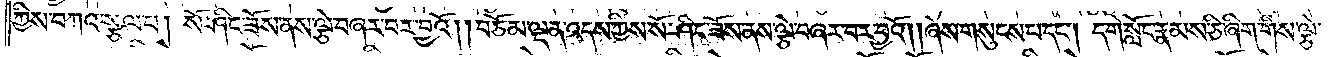ཀྱིས་བཀའ་སྩལ་པ། སོ་ཤིང་ཟོས་ནས་ལྕེ་བཞར་བར་བྱའོ། །བཅོམ་ལྡན་འདས་ཀྱིས་སོ་ཤིང་ཟོས་ནས་ལྕེ་བཞར་བར་བྱའོ། །ཞེས་གསུངས་པ་དང༌། དགེ་སློང་རྣམས་ཅི་ཞིག་གིས་ལྕེ་
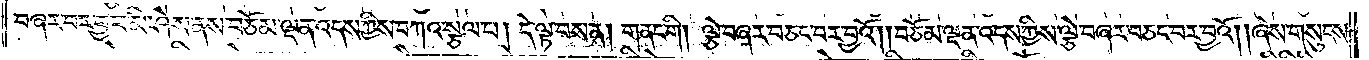བཞར་བར་བྱ་བ་མི་ཤེས་ནས་བཅོམ་ལྡན་འདས་ཀྱིས་བཀའ་སྩལ་པ། དེ་ལྟ་བས་ན། གནང་གི། ལྕེ་བཞར་བཅང་བར་བྱའོ། །བཅོམ་ལྡན་འདས་ཀྱིས་ལྕེ་བཞར་བཅང་བར་བྱའོ། །ཞེས་གསུངས་
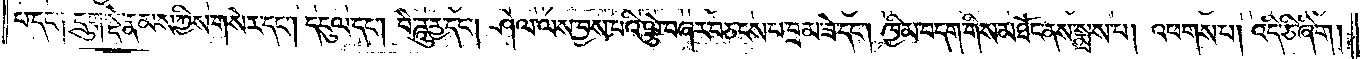པ་དང༌། དྲུག་སྡེ་རྣམས་ཀྱིས་གསེར་དང༌། དངུལ་དང༌། བཻཌཱུཪྻ་དང༌། ཤེལ་ལས་བྱས་པའི་ལྕེ་བཞར་བཅངས་པ་བྲམ་ཟེ་དང༌། ཁྱིམ་བདག་གིས་མཐོང་ནས་སྨྲས་པ། འཕགས་པ། འདི་ཅི་ཞིག།
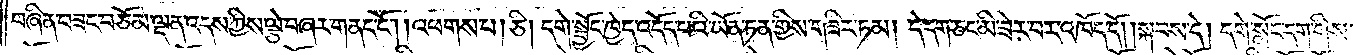བཞིན་བཟང་བཅོམ་ལྡན་འདས་ཀྱིས་ལྕེ་བཞར་གནང་ངོ༌། །འཕགས་པ། ཅི། དགེ་སྦྱོང་ཁྱེད་འདོད་པའི་ཡོན་ཏན་གྱིས་གཟིར་ཏམ། དེ་དག་ཅང་མི་ཟེར་བར་འཁོད་དོ། །སྐབས་དེ། དགེ་སློང་དག་གིས་
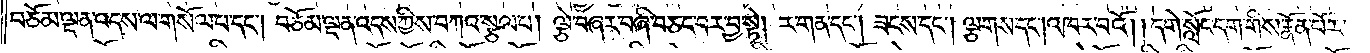བཅོམ་ལྡན་འདས་ལ་གསོལ་པ་དང༌། བཅོམ་ལྡན་འདས་ཀྱིས་བཀའ་སྩལ་པ། ལྕེ་བཞར་བཞི་བཅང་བར་བྱ་སྟེ། ར་གན་དང༌། ཟངས་དང༌། ལྕགས་དང༌། འཁར་བའོ། །དགེ་སློང་དག་གིས་རྣོན་པོར་
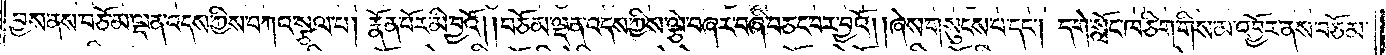བྱས་ནས་བཅོམ་ལྡན་འདས་ཀྱིས་བཀའ་སྩལ་པ། རྣོན་པོར་མི་བྱའོ། །བཅོམ་ལྡན་འདས་ཀྱིས་ལྕེ་བཞར་བཞི་བཅང་བར་བྱའོ། །ཞེས་གསུངས་པ་དང༌། དགེ་སློང་ཁ་ཅིག་གིས་མ་འབྱོར་ནས་བཅོམ་
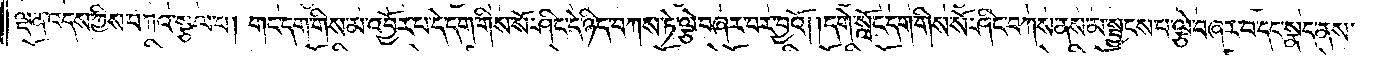ལྡན་འདས་ཀྱིས་བཀའ་སྩལ་པ། གང་དག་གིས་མ་འབྱོར་པ་དེ་དག་གིས་སོ་ཤིང་དེ་ཉིད་བཀས་ཏེ་ལྕེ་བཞར་བར་བྱའོ། །དགེ་སློང་དག་གིས་སོ་ཤིང་བཀས་ནས་མ་སྦྱངས་པ་ལྕེ་བཞར་བ་དང་སྣད་ནས་
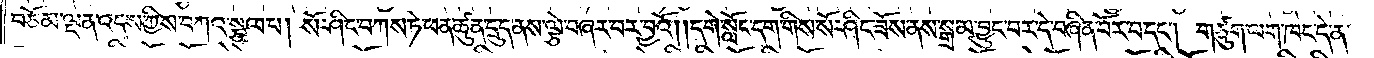བཅོམ་ལྡན་འདས་ཀྱིས་བཀའ་སྩལ་པ། སོ་ཤིང་བཀས་ཏེ་ཕན་ཚུན་དྲུད་ནས་ལྕེ་བཞར་བར་བྱའོ། །དགེ་སློང་དག་གིས་སོ་ཤིང་ཟོས་ནས་སྒྲ་མ་བྱུང་བར་དེ་བཞིན་བོར་བ་དང༌། གཙུག་ལག་ཁང་དེ་ན་
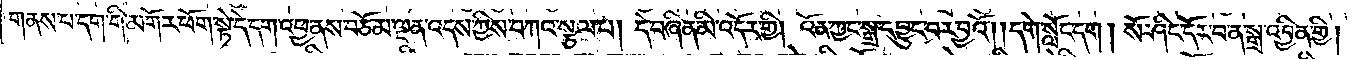གནས་པ་དག་གི་མགོར་ཕོག་སྟེ་དེ་དག་འཕྱ་ནས་བཅོམ་ལྡན་འདས་ཀྱིས་བཀའ་སྩལ་པ། དེ་བཞིན་མི་འདོར་གྱི། འོན་ཀྱང་སྒྲ་དབྱུང་བར་བྱའོ། །དགེ་སློང་དག། སོ་ཤིང་དོར་བ་ན་སྒྲ་འབྱིན་གྱི།
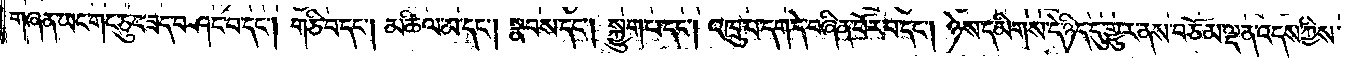གཞན་ཡང་གང་ཅུང་ཟད་བཤང་བ་དང༌། གཅི་བ་དང༌། མཆིལ་མ་དང༌། སྣབས་དང༌། སྐྱུག་པ་དང༌། འཁྲུ་བ་དག་དེ་བཞིན་བོར་བ་དང༌། ཉེས་དམིགས་དེ་ཉིད་དུ་གྱུར་ནས་བཅོམ་ལྡན་འདས་ཀྱིས་
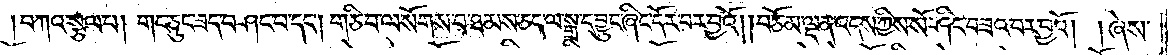བཀའ་སྩལ་པ། གང་ཅུང་ཟད་བཤང་པ་དང༌། གཅི་བ་ལ་སོགས་པ་ཐམས་ཅད་ལ་སྒྲ་དབྱུང་ཞིང་དོར་བར་བྱའོ། །བཅོམ་ལྡན་འདས་ཀྱིས་སོ་ཤིང་བཟའ་བར་བྱའོ། །ཞེས་
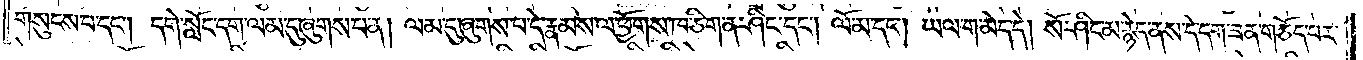གསུངས་པ་དང༌། དགེ་སློང་དག་ལམ་དུ་ཞུགས་པ་ན། ལམ་དུ་ཞུགས་པ་དེ་རྣམས་ལ་ཕྱོགས་ཁ་ཅིག་ན་ཤིང་དང༌། ལོ་མ་དང༌། ཡལ་ག་མེད་དེ། སོ་ཤིང་མ་རྙེད་ནས་དེ་དག་ཟན་གཅོད་པར་
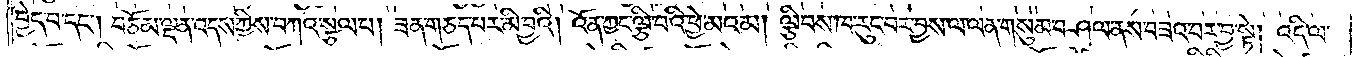བྱེད་པ་དང༌། བཅོམ་ལྡན་འདས་ཀྱིས་བཀའ་སྩལ་པ། ཟན་གཅད་པར་མི་བྱའི། འོན་ཀྱང་ལྕི་བའི་ཕྱེ་མའམ། ལྕིབས་ཁ་རུང་བར་བྱས་ལ་ལན་གསུམ་བཤལ་ནས་བཟའ་བར་བྱ་སྟེ། འདི་ལ་
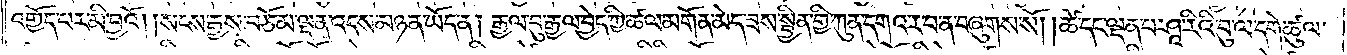འགྱོད་པར་མི་བྱའོ། །སངས་རྒྱས་བཅོམ་ལྡན་འདས་མཉན་ཡོད་ན། རྒྱལ་བུ་རྒྱལ་བྱེད་ཀྱི་ཚལ་མགོན་མེད་ཟས་སྦྱིན་གྱི་ཀུན་དགའ་ར་བ་ན་བཞུགས་སོ། །ཚེ་དང་ལྡན་པ་ཤཱ་རིའི་བུ་ལ་དགེ་ཚུལ་
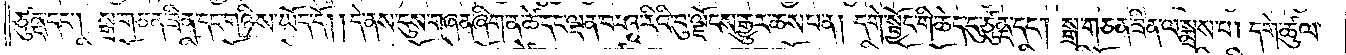ཙུནྡ་དང༌། སྒྲ་གཅན་ཟིན་དང་གཉིས་ཡོད་དོ། །དེ་ནས་དུས་གཞན་ཞིག་ན་ཚེ་དང་ལྡན་པ་ཤཱ་རིའི་བུ་ལྗོངས་རྒྱུར་ཆས་པ་ན། དགེ་སྦྱོང་གི་ཆེད་དུ་ཙུནྡ་དང༌། སྒྲ་གཅན་ཟིན་ལ་སྨྲས་པ། དགེ་ཚུལ་
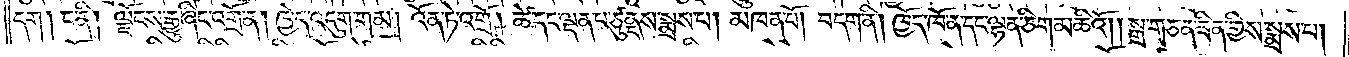དག །ང་ནི། ལྗོངས་རྒྱུ་ཞིང་འགྲོ་ན། ཁྱེད་འདུག་གམ། འོན་ཏེ་འགྲོ། ཚེ་དང་ལྡན་པ་ཙུནྡས་སྨྲས་པ། མཁན་པོ། བདག་ནི། ཁྱོད་ཁོ་ན་དང་ལྷན་ཅིག་མཆིའོ། །སྒྲ་གཅན་ཟིན་གྱིས་སྨྲས་པ།
